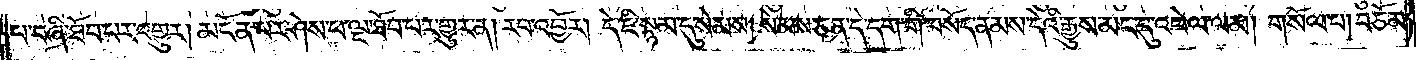པ་བཞི་ཐོབ་པར་འགྱུར། མངོན་པར་ཤེས་པ་ལྔ་ཐོབ་པར་གྱུར་ན། རབ་འབྱོར། དེ་ཇི་སྙམ་དུ་སེམས། སེམས་ཅན་དེ་དག་གི་བསོད་ནམས་དེའི་རྒྱུས་མང་དུ་འཕེལ་ལམ། གསོལ་པ། བཅོམ་
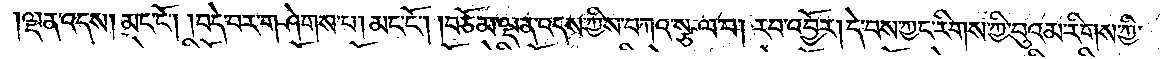ལྡན་འདས། མང་ངོ༌། །བདེ་བར་གཤེགས་པ། མང་ངོ༌། བཅོམ་ལྡན་འདས་ཀྱིས་བཀའ་སྩལ་པ། རབ་འབྱོར། དེ་བས་ཀྱང་རིགས་ཀྱི་བུའམ་རིགས་ཀྱི་
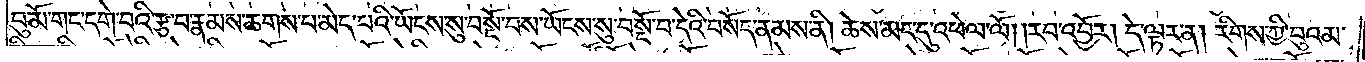བུ་མོ་གང་དགེ་བའི་རྩ་བ་རྣམས་ཆགས་པ་མེད་པའི་ཡོངས་སུ་བསྔོ་བས་ཡོངས་སུ་བསྔོ་བ་དེའི་བསོད་ནམས་ནི། ཆེས་མང་དུ་འཕེལ་ལོ། །རབ་འབྱོར། དེ་ལྟར་ན། རིགས་ཀྱི་བུའམ་
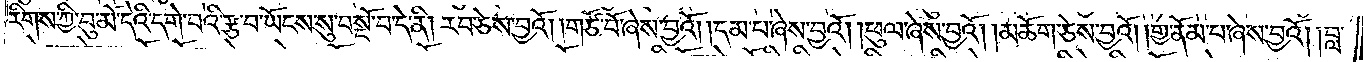རིགས་ཀྱི་བུ་མོ་དེའི་དགེ་བའི་རྩ་བ་ཡོངས་སུ་བསྔོ་བ་དེ་ནི། རབ་ཅེས་བྱའོ། །གཙོ་བོ་ཞེས་བྱའོ། །དམ་པ་ཞེས་བྱའོ། །ཕུལ་ཞེས་བྱའོ། །མཆོག་ཅེས་བྱའོ། །གྱ་ནོམ་པ་ཞེས་བྱའོ། །བླ་
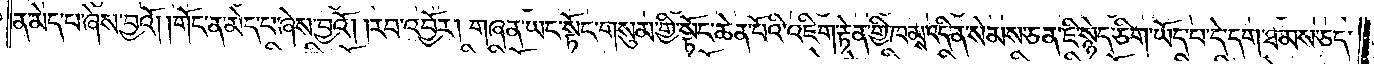ན་མེད་པ་ཞེས་བྱའོ། །གོང་ན་མེད་པ་ཞེས་བྱའོ། །རབ་འབྱོར། གཞན་ཡང་སྟོང་གསུམ་གྱི་སྟོང་ཆེན་པོའི་འཇིག་རྟེན་གྱི་ཁམས་འདི་ན་སེམས་ཅན་ཇི་སྙེད་ཅིག་ཡོད་པ་དེ་དག་ཐམས་ཅད་
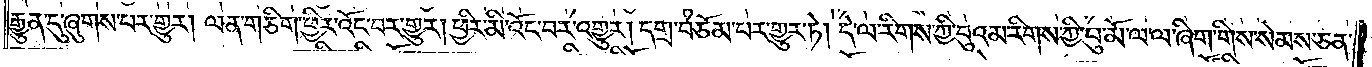རྒྱུན་དུ་ཞུགས་པར་གྱུར། ལན་གཅིག་ཕྱིར་འོང་བར་གྱུར། ཕྱིར་མི་འོང་བར་འགྱུར། དགྲ་བཅོམ་པར་གྱུར་ཏེ། དེ་ལ་རིགས་ཀྱི་བུའམ་རིགས་ཀྱི་བུ་མོ་ལ་ལ་ཞིག་གིས་སེམས་ཅན་
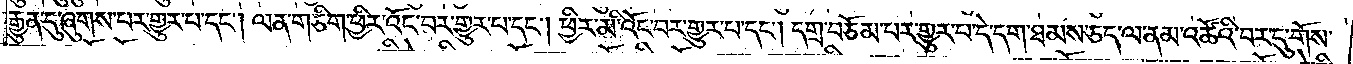རྒྱུན་དུ་ཞུགས་པར་གྱུར་པ་དང༌། ལན་གཅིག་ཕྱིར་འོང་བར་གྱུར་པ་དང༌། ཕྱིར་མི་འོང་བར་གྱུར་པ་དང༌། དགྲ་བཅོམ་པར་གྱུར་བ་དེ་དག་ཐམས་ཅད་ལ་ནམ་འཚོའི་བར་དུ་གོས་
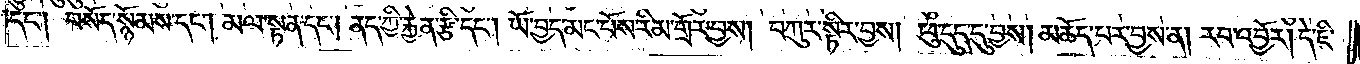དང༌། བསོད་སྙོམས་དང༌། མལ་སྟན་དང༌། ནད་ཀྱི་རྐྱེན་རྩི་དང༌། ཡོ་བྱད་མང་པོས་རིམ་གྲོར་བྱས། བཀུར་སྟིར་བྱས། ཕུ་དུད་དུ་བྱས། མཆོད་པར་བྱས་ན། རབ་འབྱོར། དེ་ཇི་
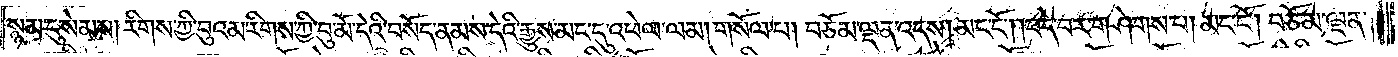སྙམ་དུ་སེམས། རིགས་ཀྱི་བུའམ་རིགས་ཀྱི་བུ་མོ་དེའི་བསོད་ནམས་དེའི་རྒྱུས་མང་དུ་འཕེལ་ལམ། གསོལ་པ། བཅོམ་ལྡན་འདས། མང་ངོ༌། །བདེ་བར་གཤེགས་པ། མང་ངོ༌། །བཅོམ་ལྡན་
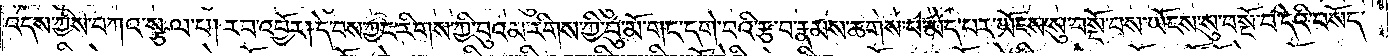འདས་ཀྱིས་བཀའ་སྩལ་པ། རབ་འབྱོར། དེ་བས་ཀྱང་རིགས་ཀྱི་བུའམ་རིགས་ཀྱི་བུ་མོ་གང་དགེ་བའི་རྩ་བ་རྣམས་ཆགས་པ་མེད་པར་ཡོངས་སུ་བསྔོ་བས་ཡོངས་སུ་བསྔོ་བ་དེའི་བསོད་
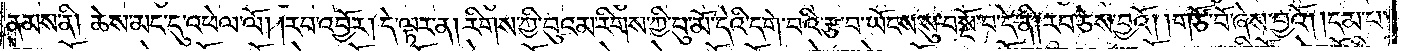ནམས་ནི། ཆེས་མང་དུ་འཕེལ་ལོ། །རབ་འབྱོར། དེ་ལྟར་ན། རིགས་ཀྱི་བུའམ་རིགས་ཀྱི་བུ་མོ་དེའི་དགེ་བའི་རྩ་བ་ཡོངས་སུ་བསྔོ་བ་དེ་ནི། རབ་ཅེས་བྱའོ། །གཙོ་བོ་ཞེས་བྱའོ། །དམ་པ་
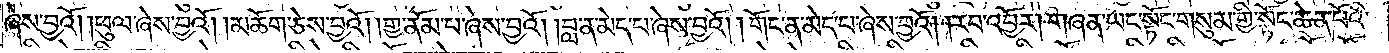ཞེས་བྱའོ། །ཕུལ་ཞེས་བྱའོ། །མཆོག་ཅེས་བྱའོ། །གྱ་ནོམ་པ་ཞེས་བྱའོ། །བླ་ན་མེད་པ་ཞེས་བྱའོ། །གོང་ན་མེད་པ་ཞེས་བྱའོ། །རབ་འབྱོར། གཞན་ཡང་སྟོང་གསུམ་གྱི་སྟོང་ཆེན་པོའི་
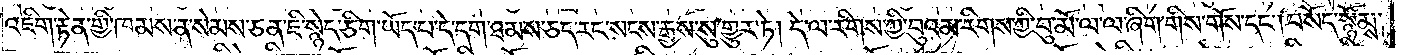འཇིག་རྟེན་གྱི་ཁམས་ན་སེམས་ཅན་ཇི་སྙེད་ཅིག་ཡོད་པ་དེ་དག་ཐམས་ཅད་རང་སངས་རྒྱས་སུ་གྱུར་ཏེ། དེ་ལ་རིགས་ཀྱི་བུའམ་རིགས་ཀྱི་བུ་མོ་ལ་ལ་ཞིག་གིས་གོས་དང༌། བསོད་སྙོམས་
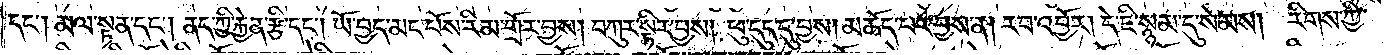དང༌། མལ་སྟན་དང༌། ནད་ཀྱི་རྐྱེན་རྩི་དང༌། ཡོ་བྱད་མང་པོས་རིམ་གྲོར་བྱས། བཀུར་སྟིར་བྱས། ཕུ་དུད་དུ་བྱས། མཆོད་པར་བྱས་ན། རབ་འབྱོར། དེ་ཇི་སྙམ་དུ་སེམས། རིགས་ཀྱི་
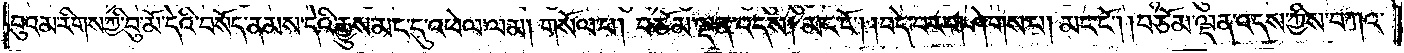བུའམ་རིགས་ཀྱི་བུ་མོ་དའི་བསོད་ནམས་དེའི་རྒྱུས་མང་དུ་འཕེལ་ལམ། གསོལ་པ། བཅོམ་ལྡན་འདས། མང་ངོ༌། །བདེ་བར་གཤེགས་པ། མང་ངོ༌། །བཅོམ་ལྡན་འདས་ཀྱིས་བཀའ་
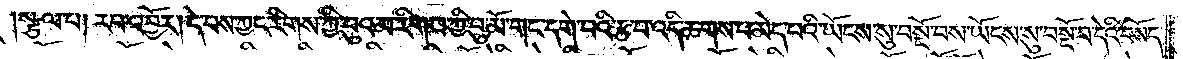སྩལ་པ། རབ་འབྱོར། དེ་བས་ཀྱང་རིགས་ཀྱི་བུའམ་རིགས་ཀྱི་བུ་མོ་གང་དགེ་བའི་རྩ་བ་འདི་ཆགས་པ་མེད་པའི་ཡོངས་སུ་བསྔོ་བས་ཡོངས་སུ་བསྔོ་བ་དེའི་བསོད་
